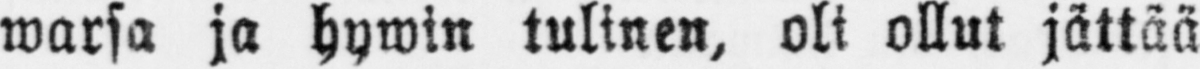warsa ja hywin tulinen, oli ollut jättää
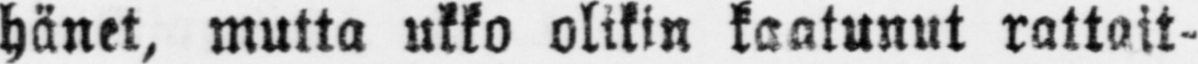hänet, mutta ukko olikin kaatunut rattait-
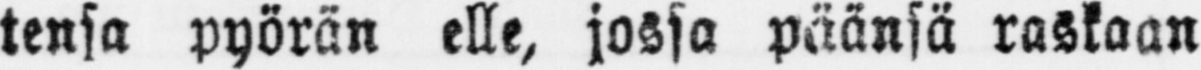tensa pyörän elle, jossa päänsä raskaan
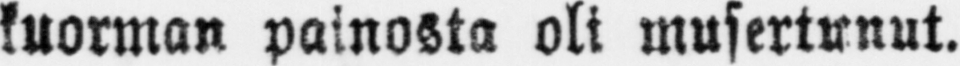kuorman painosta oli musertunut.
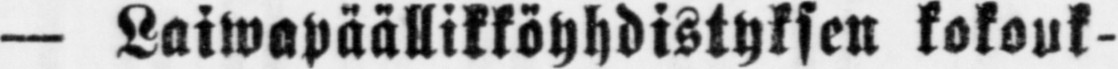— Laiwapäällikköyhdistyksen kokouk-
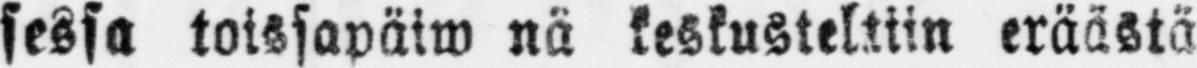sessa toissapäiw nä keskusteltiin eräästä
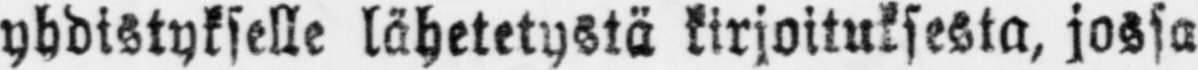yhdistykselle lähetetystä kirjoituksesta, jossa
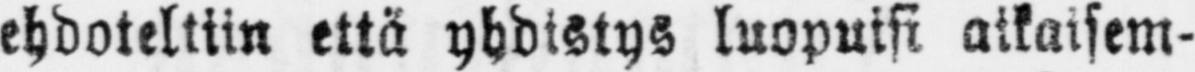ehdoteltiin että yhdistys luopuisi aikaisem-
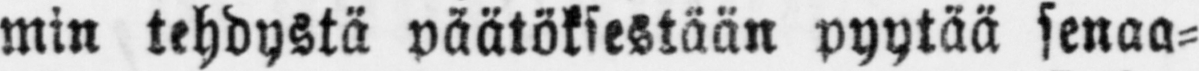min tehdystä päätöksestään pyytää senaa-
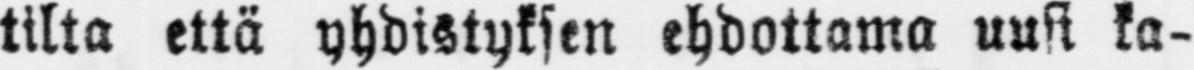tilta että yhdistyksen ehdottama uusi ka-
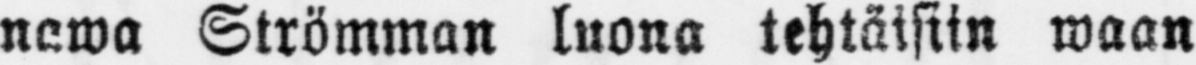newa Strömman luona tehtäisiin waan
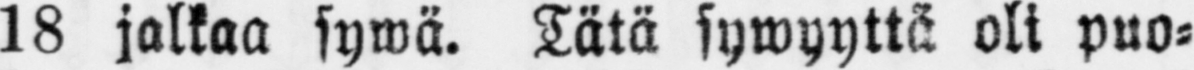18 jalkaa sywä. Tätä sywyyttä oli puo-
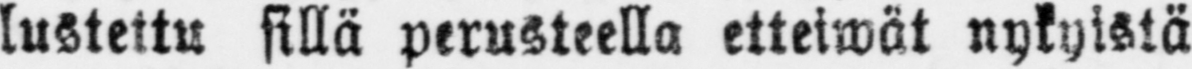lustettu sillä perusteella etteiwät nykyistä
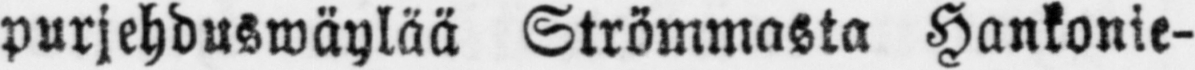purjehduswäylää Strömmasta Hankonie-
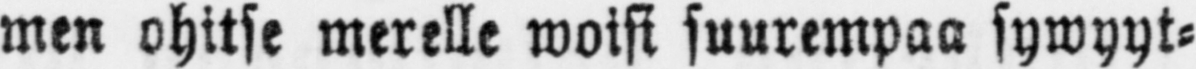men ohitse merelle woisi suurempaa sywyyt-
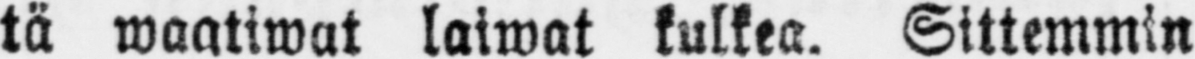tä waatiwat laiwat kulkea. Sittemmin
